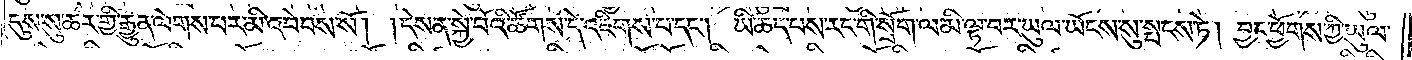དུས་སུ་ཆར་གྱི་རྒྱུན་ལེགས་པར་མི་འབེབས་སོ། །དེས་ན་སྐྱེ་བོའི་ཚོགས་དེ་འཇིགས་པ་དང༌། ཡི་ཆད་པས་རང་གི་སྲོག་ལ་མི་ལྟ་བར་ཡུལ་ཡོངས་སུ་སྤངས་ཏེ། བྱང་ཕྱོགས་ཀྱི་ཡུལ་
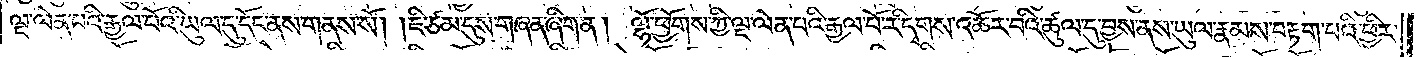ལྔ་ལེན་པའི་རྒྱལ་པོའི་ཡུལ་དུ་དོང་ནས་གནས་སོ། །ཇི་ཙམ་དུས་གཞན་ཞིག་ན། ལྷོ་ཕྱོགས་ཀྱི་ལྔ་ལེན་པའི་རྒྱལ་པོ་རི་དྭགས་འཆོར་བའི་ཚུལ་དུ་བྱས་ནས་ཡུལ་རྣམས་བརྟག་པའི་ཕྱིར་
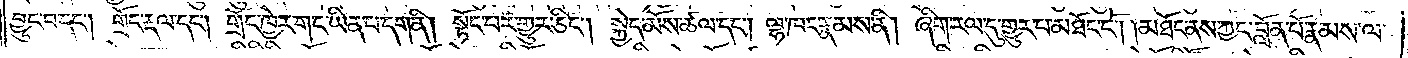བྱུང་བ་དང༌། གྲོང་རྡལ་དང༌། གྲོང་ཁྱེར་གང་ཡིན་པ་དག་ནི། སྟོང་པར་གྱུར་ཅིང༌། སྐྱེད་མོས་ཚལ་དང༌། ལྷ་ཁང་རྣམས་ནི། ཞིག་རལ་དུ་གྱུར་པ་མཐོང་ངོ༌། །མཐོང་ནས་ཀྱང་བློན་པོ་རྣམས་ལ་
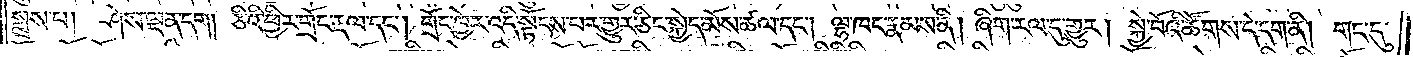སྨྲས་པ། ཤེས་ལྡན་དག །ཅིའི་ཕྱིར་གྲོང་རྡལ་དང༌། གྲོང་ཁྱེར་འདི་སྟོངས་པར་གྱུར་ཅིང་སྐྱེད་མོས་ཚལ་དང༌། ལྷ་ཁང་རྣམས་ནི། ཞིག་རལ་དུ་གྱུར། སྐྱེ་བོའི་ཚོགས་དེ་དག་ནི། གང་དུ་
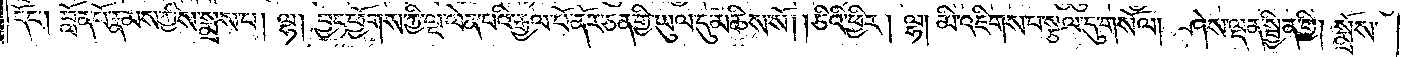དོང༌། བློན་པོ་རྣམས་ཀྱིས་སྨྲས་པ། ལྷ། བྱང་ཕྱོགས་ཀྱི་ལྔ་ལེན་པའི་རྒྱལ་པོ་ནོར་ཅན་གྱི་ཡུལ་དུ་མཆིས་སོ། །ཅིའི་ཕྱིར། ལྷ། མི་འཇིགས་པ་སྩལ་དུ་གསོལ། །ཤེས་ལྡན་སྦྱིན་གྱི། སྨྲོས་
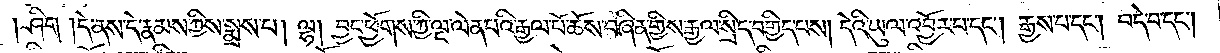ཤིག །དེ་ནས་དེ་རྣམས་ཀྱིས་སྨྲས་པ། ལྷ། བྱང་ཕྱོགས་ཀྱི་ལྔ་ལེན་པའི་རྒྱལ་པོ་ཆོས་བཞིན་གྱིས་རྒྱལ་སྲིད་བགྱིད་པས། དེའི་ཡུལ་འབྱོར་བ་དང༌། རྒྱས་པ་དང༌། བདེ་བ་དང༌།
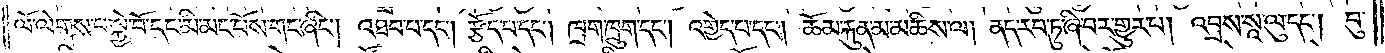ལོ་ལེགས་པ་སྐྱེ་བོ་དང་མི་མང་པོས་གང་ཞིང༌། འཐབ་པ་དང༌། རྩོད་པ་དང༌། ཁྲག་ཁྲུག་དང༌། འགྱེད་པ་དང༌། ཆོམ་རྐུན་མ་མཆིས་ལ། ནད་རབ་ཏུ་ཞི་བར་གྱུར་པ། འབྲས་སཱ་ལུ་དང༌། བུ་
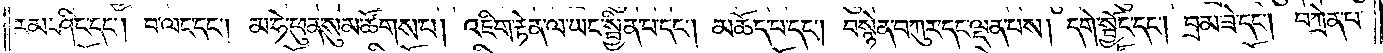རམ་ཤིང་དང༌། བ་ལང་དང༌། མ་ཧེ་ཕུན་སུམ་ཚོགས་པ། འཇིག་རྟེན་ལ་ཡང་སྦྱིན་པ་དང༌། མཆོད་པ་དང༌། བསྙེན་བཀུར་དང་ལྡན་པས། དགེ་སྦྱོང་དང༌། བྲམ་ཟེ་དང༌། བཀྲེན་པ་
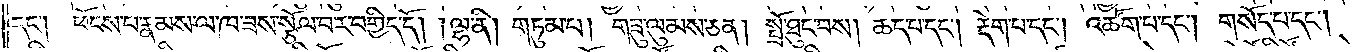དང༌། ཕོངས་པ་རྣམས་ལ་ཁ་ཟས་སྩོལ་བར་བགྱིད་དོ། །ལྷ་ནི། གཏུམ་པ། གཟུ་ལུམས་ཅན། སྤྲོ་ཐུང་བས། ཆད་པ་དང༌། རྡེག་པ་དང༌། འཚོག་པ་དང༌། གསོད་པ་དང༌།
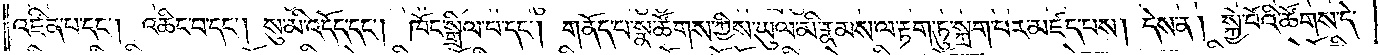འཛིན་པ་དང༌། འཆིང་བ་དང༌། སུ་མི་འདོད་དང༌། ཁོང་སྒྲིལ་བ་དང༌། གནོད་པ་སྣ་ཚོགས་ཀྱིས་ཡུལ་མི་རྣམས་ལ་རྟག་ཏུ་སྐྲག་པར་མཛད་པས། དེ་ན། སྐྱེ་བོའི་ཚོགས་དེ་
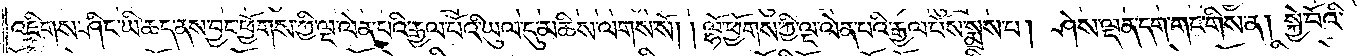འཇིགས་ཤིང་ཡི་ཆད་ནས་བྱང་ཕྱོགས་ཀྱི་ལྔ་ལེན་པའི་རྒྱལ་པོའི་ཡུལ་དུ་མཆིས་ལགས་སོ། །ལྷོ་ཕྱོགས་ཀྱི་ལྔ་ལེན་པའི་རྒྱལ་པོས་སྨྲས་པ། ཤེས་ལྡན་དག་གང་གིས་ན། སྐྱེ་བོའི་
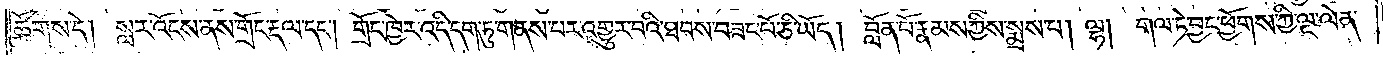ཚོགས་དེ། སླར་འོངས་ནས་གྲོང་རྡལ་དང༌། གྲོང་ཁྱེར་འདི་དག་ཏུ་གནས་པར་འགྱུར་བའི་ཐབས་བཟང་པོ་ཅི་ཡོད། བློན་པོ་རྣམས་ཀྱིས་སྨྲས་པ། ལྷ། གལ་ཏེ་བྱང་ཕྱོགས་ཀྱི་ལྔ་ལེན་
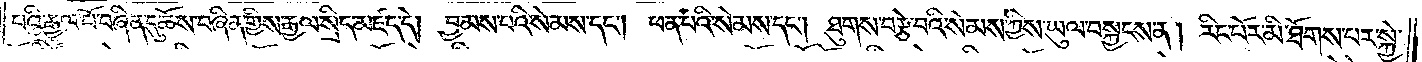པའི་རྒྱལ་པོ་བཞིན་དུ་ཆོས་བཞིན་གྱིས་རྒྱལ་སྲིད་མཛད་དེ། བྱམས་པའི་སེམས་དང༌། ཕན་པའི་སེམས་དང༌། ཐུགས་བརྩེ་བའི་སེམས་ཀྱིས་ཡུལ་བསྐྱངས་ན། རིང་པོར་མི་ཐོགས་པར་སྐྱེ་
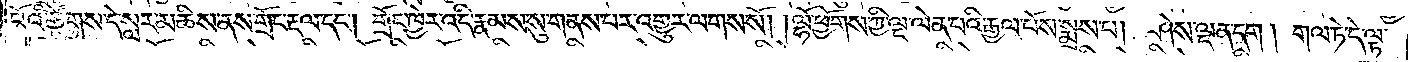བོའི་ཚོགས་དེ་སླར་མཆིས་ནས་གྲོང་རྡལ་དང༌། གྲོང་ཁྱེར་འདི་རྣམས་སུ་གནས་པར་འགྱུར་ལགས་སོ། །ལྷོ་ཕྱོགས་ཀྱི་ལྔ་ལེན་པའི་རྒྱལ་པོས་སྨྲས་པ། ཤེས་ལྡན་དག །གལ་ཏེ་དེ་ལྟ་
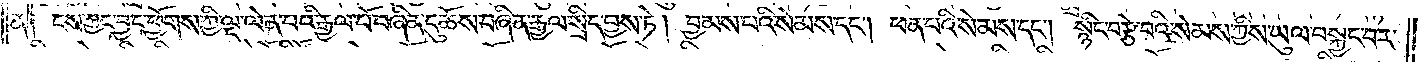ན༑ ངས་ཀྱང་བྱང་ཕྱོགས་ཀྱི་ལྔ་ལེན་པའི་རྒྱལ་པོ་བཞིན་དུ་ཆོས་བཞིན་རྒྱལ་སྲིད་བྱས་ཏེ། བྱམས་པའི་སེམས་དང༌། ཕན་པའི་སེམས་དང༌། སྙིང་བརྩེ་བའི་སེམས་ཀྱིས་ཡུལ་བསྐྱང་བར་
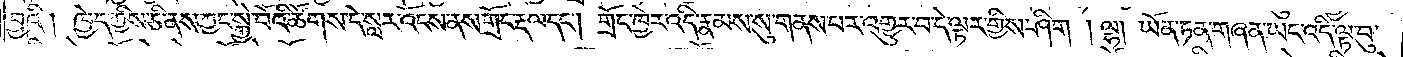བྱའི། ཁྱེད་ཀྱིས་ཅི་ནས་ཀྱང་སྐྱེ་བོའི་ཚོགས་དེ་སླར་འོངས་ནས་གྲོང་རྡལ་དང༌། གྲོང་ཁྱེར་འདི་རྣམས་སུ་གནས་པར་འགྱུར་བ་དེ་ལྟར་གྱིས་ཤིག །ལྷ། ཡོན་ཏན་གཞན་ཡང་འདི་ལྟ་བུ་
